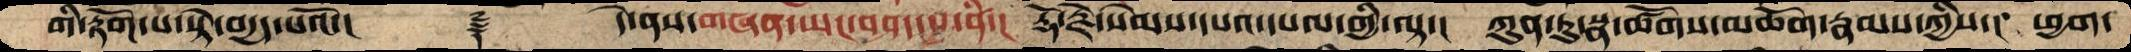གི་རྟོག་པ་སྟེ་བདྱད་པའོ་།  ࿑    དེ་ནས་གཞན་ཡང་བཤད་བྱ་ནི་།  རྡོ་རྗེ་སེམས་དཔའ་དཔལ་གྱི་ལྟ་།  ཀུན་ཏུ་སྣ་ཚོགས་མཆོག་རྣམས་ཀྱིས་།  ཕྱག་
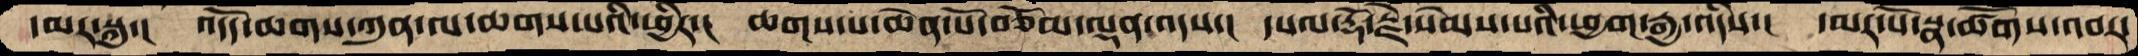དམར་སྐུ་།  འདོད་ཆགས་ཀུན་ལ་ཆགས་པའི་ཕྱིར་།  ཆགས་པ་ཆེན་པོ་བཅོམ་ལྡན་འདས་།  དཔལ་རྡོ་རྗེ་སེམས་པའི་ཕྱག་རྒྱ་འདིས་།  དམར་པོ་སྣ་ཚོགས་འབར་
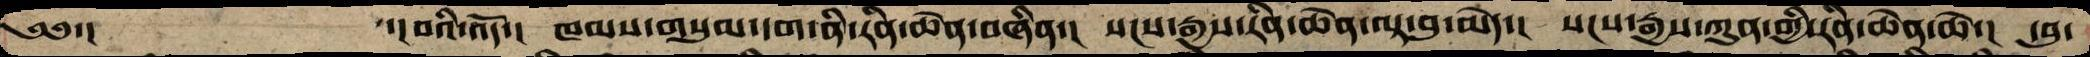༄༅་།         ་།བའི་འོད་།  ཁམས་གསུམ་དག་ནི་རིན་ཆེན་བཞིན་།  སངས་རྒྱས་་རིན་ཆེན་ལྟ་བུ་མེད་།  སངས་རྒྱས་ཀུན་གྱི་རིན་ཆེན་ཆེ་།  དབུ་
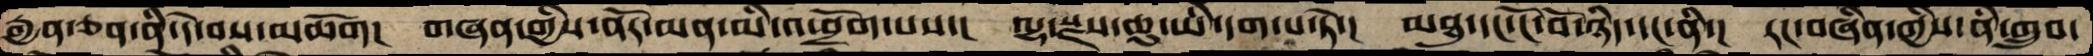རྒྱན་ཅན་ནི་དེ་བས་མཆོག།  གཞན་གྱིས་ནོར་མན་མི་འཕྲོག་པས་།  ལྷ་སྫས་ཆུ་ཡི་དག་པ་ཏེ་།  མཐུ་དང་ངོ་བོ་ཉིད་དང་ནི་།  རང་བཞིན་གྱིས་ནི་གྲུབ་
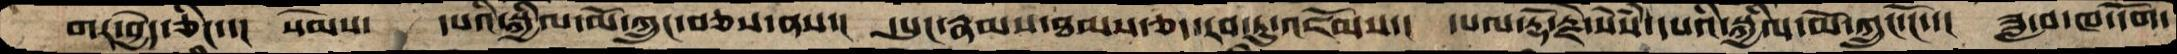གར་བྱེད་ཅིང་།  སེམས་  དཔའི་སྐྱིལ་མོ་ཀྲུང་བཅས་ནས་།  དཔུང་རྣམས་ཐམས་ཅད་རབ་ཏུ་འཇོམས་།  དཔལ་རྡོ་རྗེ་སེཾས་དཔའི་སྐྱིལ་མོ་ཀྲུང་ངོ་་།  ཟླ་བ་ཁ་དོག
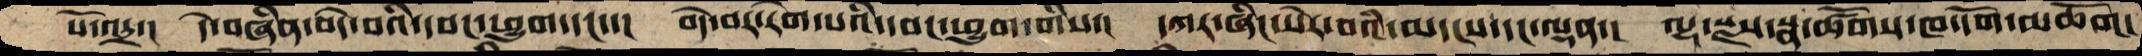པོ་འདྲ་།  དེ་བཞིན་བདེ་བའི་དབང་ཕྱུག་དང་་།  བདེ་བར་རེག་པའི་དབང་ཕྱུག་གིས་།  དཀར་ཞིང་སེར་བའི་མདངས་དང་ལྡན་།  ལྷ་སྫས་སྣ་ཚོགས་ཁ་དོག་མཆོག་
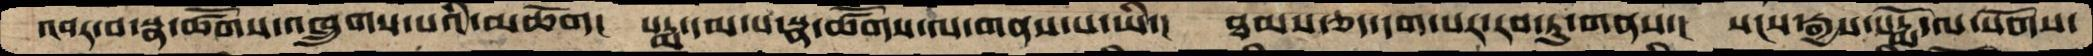འབར་བ་སྣ་ཚོགས་འཁྲུགས་པའི་མཆོག།  པདྨ་དམ་པ་སྣ་ཚོགས་ལ་གནས་པ་ཡི་།  ཐམས་ཅད་དག་པར་རབ་ཏུ་གནས་།  སངས་རྒྱས་པདྨོ་ལ་སོགས་
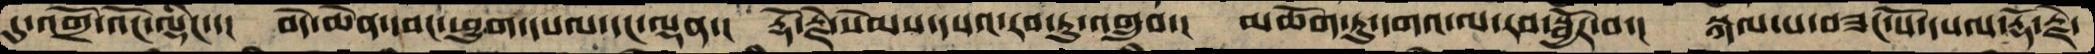དུ་འགྲོ་འོང་ལྡིང་་།  བདེ་ཆེན་དབང་ཕྱུག་དཔལ་དང་ལྡན་།  རྡོ་རྗེ་སེམས་དཔའ་རབ་ཏུ་འགྲུབ་།  མཆོག་ཏུ་དགའ་ལ་རབ་སྦྱོར་བ་།  སྐལ་པ་བཟང་པོ་དཔལ་རྡོ་རྗེ་
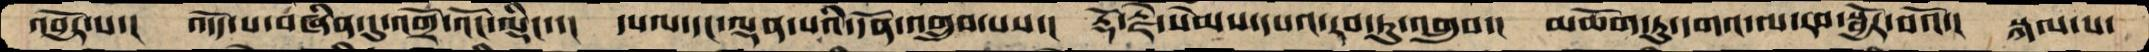འབྱོར་པ་།  འདོད་པ་བཞིན་དུ་འགྲོ་འོང་ལྡིང་་།  དཔལ་དང་ལྡན་པའི་དོན་འགྲུབ་པས་།  རྡོ་རྗེ་སེམས་དཔའ་རབ་ཏུ་འགྲུབ་།  མཆོག་ཏུ་དགའ་ལ་རབ་སྦྱོར་བའོ་།  སྐལ་
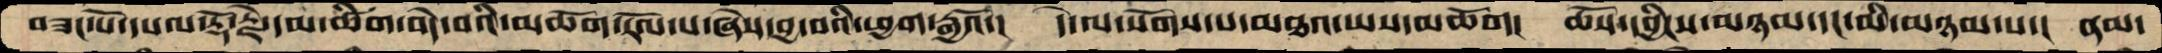བཟང་པོ་དཔལ་རྡོ་རྗེ་དམ་ཚིག་བདེ་བའི་མཆོག་རོལ་པ་ཞེས་བྱས་བའི་ཕྱག་རྒྱའོ།  དེ་ལ་སོགས་པ་མཐའ་ཡས་མཆོག།  ཆོས་དབྱིངས་མཉམ་དང་མི་མཉམ་པ་།  ནམ
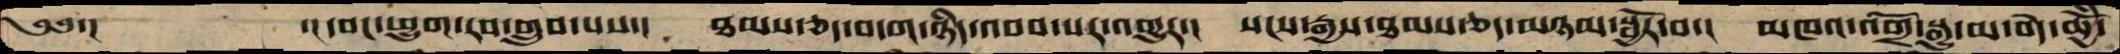༄༅་།       ་།དབང་ཕྱུག་རབ་གྲུབ་པས་།  ཐམས་ཅད་བདག་ཉིད་འབབ་པར་འགྱུར་།  སངས་རྒྱས་ཐམས་ཅད་མཉམ་སྦྱོར་བ་།  མཁའ་འགྲོ་སྒྱུ་མ་བདེ་ཆྱོི་
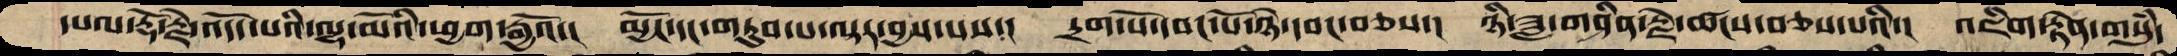དཔལ་རྡོ་རྗེ་འདོད་པའི་ལྷ་མོའི་ཕྱག་རྒྱའོ་།  མྱོང་དང་གཏུབ་པ་ལྟར་བྱས་པས་།  དྲག་པོ་དབང་པོ་ཉེ་དབང་བཅས་།  ཉི་ཟླ་གཤིན་རྗེ་ཚངས་བཅས་པའི་།  འཇིག་རྟེན་གསུཾ་
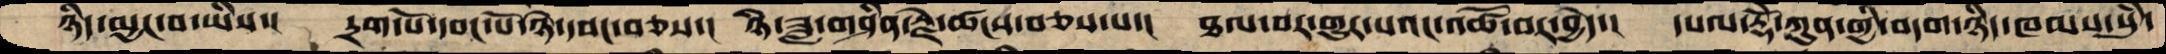ཉིད་མྱང་བ་ཡིས་།  དྲག་པོ་དབང་པོ་ཉེ་དབང་བཅས་།  ཉི་ཟླ་གཤིན་རྗེ་ཚངས་བཅས་པ་།  ཐལ་བར་གྱུར་པའང་འཚོ་བར་བྱེད་།  དཔལ་རྡོེ་ཀུན་གྱི་བདག་ཉིད་ཁམས་སུཾ་
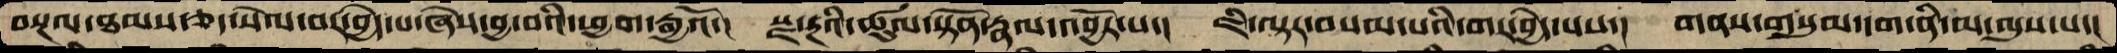བསྔལ་ཐམས་ཅད་སེལ་བར་བྱེད་པ་ཞེས་བྱ་བའི་ཕྱག་རྒྱའོ་།  སྫ་རྔའི་ཚུལ་སྟོན་རྣལ་འབྱོར་པ་།  ཇི་ལྟར་བསམ་པའི་གར་བྱེད་པས་།  གནས་གསུམ་དག་ནི་མ་ལུས་པ་།
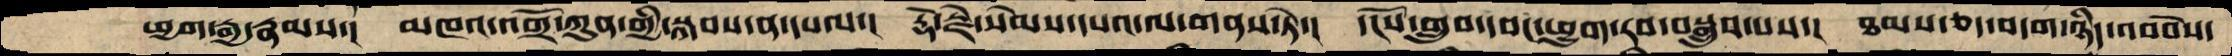ཕྱག་རྒྱ་རྣམས་།  མཁའ་འགྲོ་ཀུན་གྱི་སྐབས་ན་དཔལ་།  རྡོ་རྗེ་སེམས་དཔའ་ལ་གནས་ཏེ་།  དངོས་གྲུབ་དབང་ཕྱུག་རབ་བསྒྲུབ་པས་།  ཐམས་ཅད་བདག་ཉིད་འབེབས་
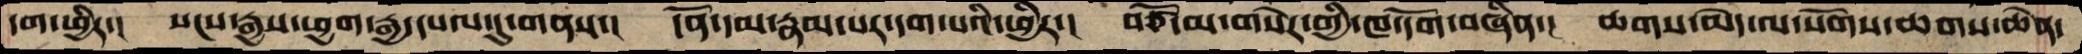དག་ཕྱིར་།  སངས་རྒྱས་ཕྱག་རྒྱ་དཔལ་དུ་གནས་།  དོན་དམ་རྣམ་པར་དག་པའི་ཕྱིར་།  བཙོ་མ་གསེར་གྱི་ཁ་དོག་བཞིན་།  ཆགས་མེད་ལ་སོགས་ཆགས་ཆེན་
